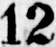12
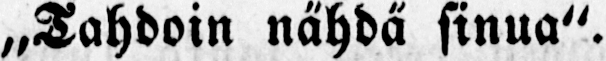„Tahdoin nä hdä sinua".
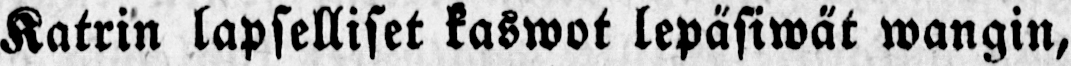Katrin lapselliset kaswot lepäsiwä t wangin,
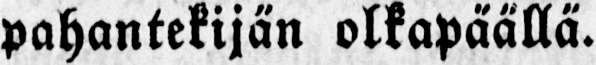pahantekijä n olkapäällä .
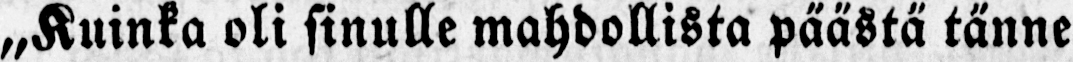„Kuinka oli sinulle mahdollista pää stä tä nne
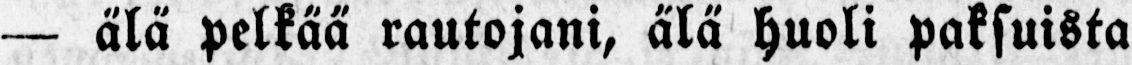— ä lä pelkää rautojani, älä huoli paksuista
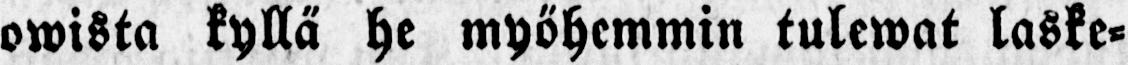owista kyllä he myöhemmin tulewat laske-
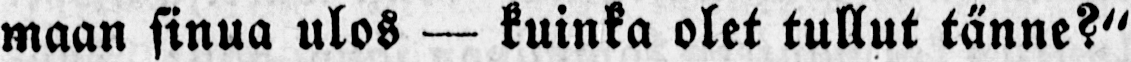maan sinua ulos — kuinka olet tullut tänne?"
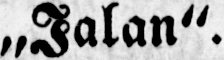„Jalan".
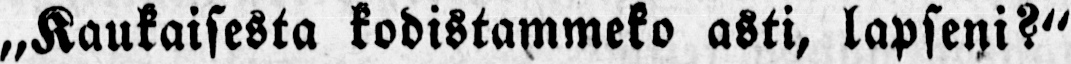„Kaukaisesta kodistammeko asti, lapseni?"
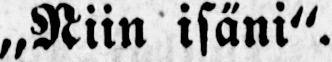„Niin isä ni".
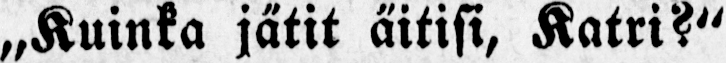„Kuinka jä tit ä itisi, Katri?"
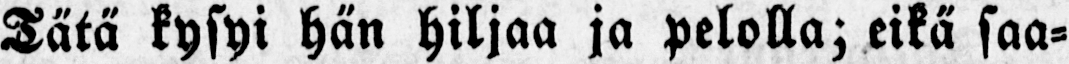Tä tä kysyi hä n hiljaa ja pelolla; eikä saa-
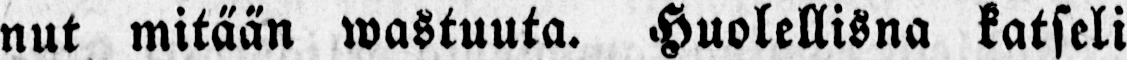nut mitää n wastuuta. Huolellisna katseli
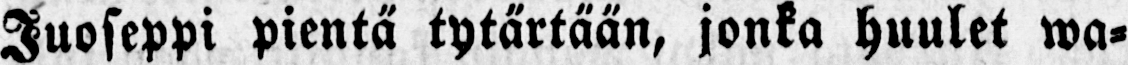Juoseppi pientä tytärtää n, jonka huulet wa-
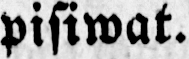pisiwat.
